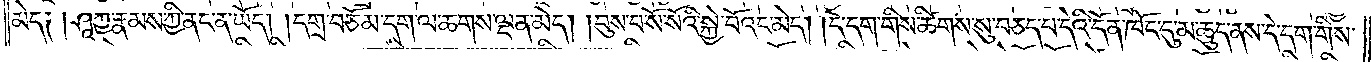མེད། །ཤཱཀྱ་རྣམས་ཀྱི་ནང་ན་ཡོད། །དགྲ་བཅོམ་དག་ལ་ཆགས་ལྡན་མེད། །བུས་པ་སོ་སོའི་སྐྱེ་བོའང་མེད། །དེ་དག་གིས་ཚིགས་སུ་བཅད་པ་དེའི་དོན་ཁོང་དུ་མ་ཆུད་ནས་དེ་དག་གིས་
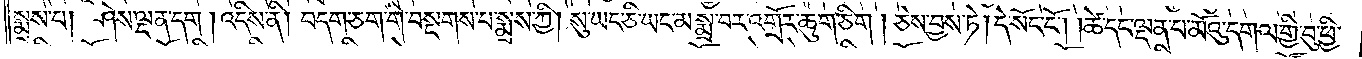སྨྲས་པ། ཤེས་ལྡན་དག །འདིས་ནི། བདག་ཅག་གི་བསྔགས་པ་སྨྲས་ཀྱི། སུ་ཡང་ཅི་ཡང་མ་སྨྲ་བར་འགྲོར་ཆུག་ཅིག །ཅེས་བྱས་ཏེ། དེ་སོང་ངོ༌། །ཚེ་དང་ལྡན་པ་མོའུ་དགལ་གྱི་བུ་ཕྱི་
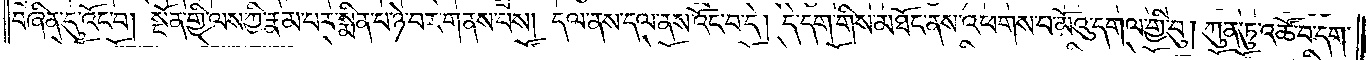བཞིན་དུ་འོང་བ། སྔོན་གྱི་ལས་ཀྱི་རྣམ་པར་སྨིན་པ་ཉེ་བར་གནས་པས། དལ་ནས་དལ་ནས་འོང་བ་དེ། དེ་དག་གིས་མཐོང་ནས་འཕགས་པ་མོའུ་དགལ་གྱི་བུ། ཀུན་ཏུ་འཚོ་བ་དག་
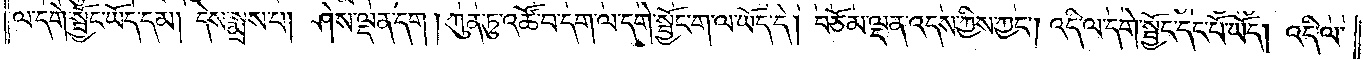ལ་དགེ་སྦྱོང་ཡོད་དམ། དེས་སྨྲས་པ། ཤེས་ལྡན་དག། ཀུན་ཏུ་འཚོ་བ་དག་ལ་དགེ་སྦྱོང་ག་ལ་ཡོད་དེ། བཅོམ་ལྡན་འདས་ཀྱིས་ཀྱང༌། འདི་ལ་དགེ་སྦྱོང་དང་པོ་ཡོད། འདི་ལ་
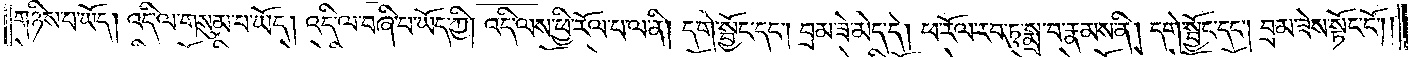གཉིས་པ་ཡོད། འདི་ལ་གསུམ་པ་ཡོད། འདི་ལ་བཞི་པ་ཡོད་ཀྱི། འདི་ལས་ཕྱི་རོལ་པ་ལ་ནི། དགེ་སྦྱོང་དང༌། བྲམ་ཟེ་མེད་དེ། ཕ་རོལ་རབ་ཏུ་སྨྲ་བ་རྣམས་ནི། དགེ་སྦྱོང་དང༌། བྲམ་ཟེས་སྟོང་ངོ༌། །
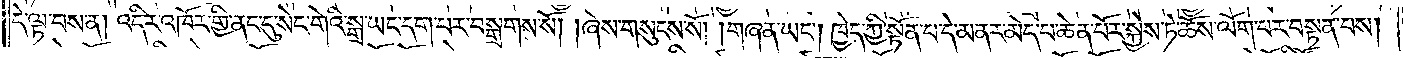དེ་ལྟ་བས་ན། འདིར་འཁོར་གྱི་ནང་དུ་སེང་གེའི་སྒྲ་ཡང་དག་པར་བསྒྲགས་སོ། །ཞེས་གསུངས་སོ། །གཞན་ཡང༌། ཁྱེད་ཀྱི་སྟོན་པ་དེ་མནར་མེད་པ་ཆེན་པོར་སྐྱེས་ཏེ་ཆོས་ལོག་པར་བསྟན་པས།
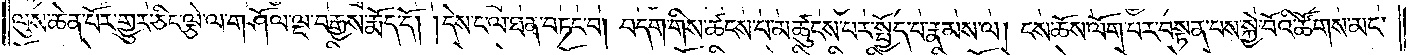ལུས་ཆེན་པོར་གྱུར་ཅིང་ལྕེ་ལ་གཤོལ་ལྔ་བརྒྱས་རྨོད་དོ། །དེས་ང་ལ་ཐན་བཏང་བ། བདག་གིས་ཚངས་པ་མཚུངས་པར་སྤྱོད་པ་རྣམས་ལ། ངས་ཆོས་ལོག་པར་བསྟན་པས་སྐྱེ་བོའི་ཚོགས་མང་
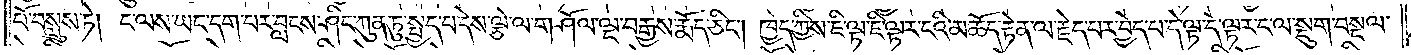པོ་བསླུས་ཏེ། ང་ལས་ཡང་དག་པར་བླངས་ཤིང་ཀུན་ཏུ་སྤྱད་པ་དེས་ལྕེ་ལ་གཤོལ་ལྔ་བརྒྱས་རྨོད་ཅིང༌། ཁྱེད་ཀྱིས་ཇི་ལྟ་ཇི་ལྟར་ངའི་མཆོད་རྟེན་ལ་རྗེད་པར་བྱེད་པ་དེ་ལྟ་དེ་ལྟར་ང་ལ་སྡུག་བསྔལ་
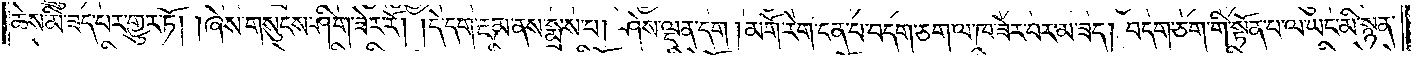ཆེས་མི་ཟད་པར་གྱུར་ཏོ། །ཞེས་གསུངས་ཤིག་ཟེར་རོ། །དེ་དག་རྔམ་ནས་སྨྲས་པ། ཤེས་ལྡན་དག །མགོ་རེག་ངན་པ་བདག་ཅག་ལ་ཁ་ཟེར་བར་མ་ཟད། བདག་ཅག་གི་སྟོན་པ་ལ་ཡང་མི་སྙན་
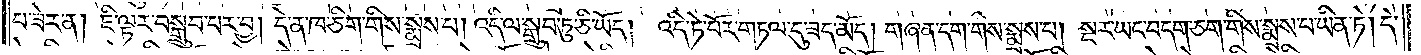པ་ཟེར་ན། ཇི་ལྟར་བསྒྲུབ་པར་བྱ། དེ་ན་ཁ་ཅིག་གིས་སྨྲས་པ། འདི་ལ་སྒྲུབ་ཏུ་ཅི་ཡོད། འདི་ཏེ་པོར་གཏལ་དུ་ཟད་མོད། གཞན་དག་གིས་སྨྲས་པ། སྔར་ཡང་བདག་ཅག་གིས་སྨྲས་པ་ཡིན་ཏེ། དེ་
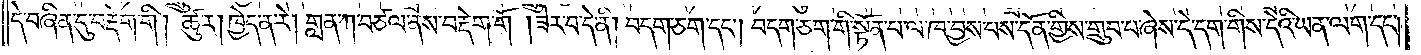དེ་བཞིན་དུ་བརྡེག་གི། ཚུར། ཁྱེད་ན་རེ། གླན་ཀ་བཙལ་ནས་བརྡེག་གོ །ཟེར་བ་དེ་ནི། བདག་ཅག་དང༌། བདག་ཅག་གི་སྟོན་པ་ལ་ཁ་བྱས་པས་དོན་གྱིས་གྲུབ་པ་ཞེས་དེ་དག་གིས་དེའི་ཡན་ལག་དང༌།
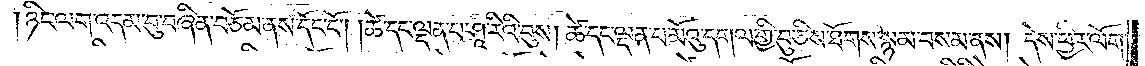ཉིང་ལག་འདམ་བུ་བཞིན་བཅོམ་ནས་དོང་ངོ༌། །ཚེ་དང་ལྡན་པ་ཤཱ་རིའི་བུས། ཚེ་དང་ལྡན་པ་མོའུ་དགལ་གྱི་བུ་ཅིས་ཐོགས་སྙམ་བསམ་ནས། དེས་ཕྱིར་ལོག་
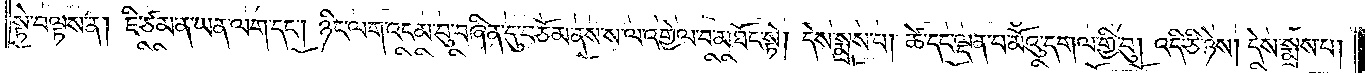སྟེ་བལྟས་ན། ཇི་ཙམ་ན་ཡན་ལག་དང༌། ཉིང་ལག་འདམ་བུ་བཞིན་དུ་བཅོམ་ལྡན་ནས་ས་ལ་འགྱེལ་བ་མཐོང་སྟེ། དེས་སྨྲས་པ། ཚེ་དང་ལྡན་པ་མོའུ་དགལ་གྱི་བུ། འདི་ཅི་ཉེས། དེས་སྨྲས་པ།
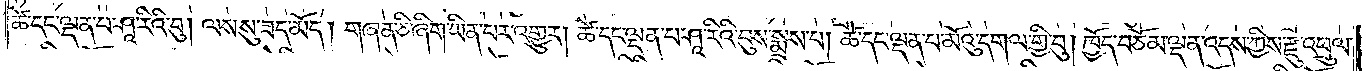ཚེ་དང་ལྡན་པ་ཤཱ་རིའི་བུ། ལས་སུ་ཟད་མོད། གཞན་ཅི་ཞིག་ཡིན་པར་འགྱུར། ཚེ་དང་ལྡན་པ་ཤཱ་རིའི་བུས་སྨྲས་པ། ཚེ་དང་ལྡན་པ་མོའུ་དགལ་གྱི་བུ། ཁྱོད་བཅོམ་ལྡན་འདས་ཀྱིས་རྫུ་འཕྲུལ་
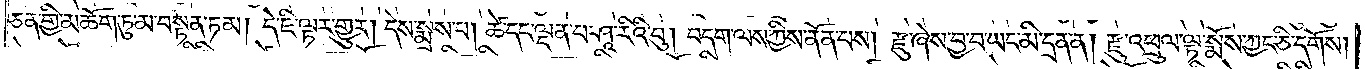ཅན་གྱི་མཆོག་ཏུ་མ་བསྟན་ཏམ། དེ་ཇི་ལྟར་གྱུར། དེས་སྨྲས་པ། ཚེ་དང་ལྡན་པ་ཤཱ་རིའི་བུ། བདག་ལས་ཀྱིས་ནན་པས། རྫུ་ཞེས་བྱ་བ་ཡང་མི་དྲན་ན། རྫུ་འཕྲུལ་ལྟ་སྨོས་ཀྱང་ཅི་དགོས།
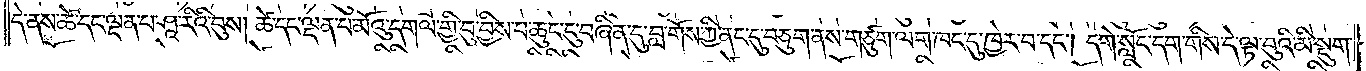དེ་ནས་ཚེ་དང་ལྡན་པ་ཤཱ་རིའི་བུས། ཚེ་དང་ལྡན་པ་མོའུ་དགལ་གྱི་བུ་བྱིས་པ་ཆུང་ངུ་བཞིན་དུ་བླ་གོས་ཀྱི་ནང་དུ་བཅུག་ནས་གཙུག་ལག་ཁང་དུ་ཁྱེར་བ་དང༌། དགེ་སློང་དག་གིས་དེ་ལྟ་བུའི་མི་སྡུག་
